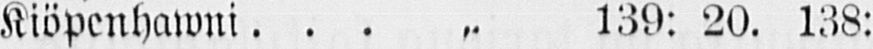Kiöpenhawni ˶ 139: 20. 138: 40.
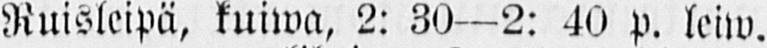Ruisleipä, kuiwa, 2: 30—2: 40 p. leiw.
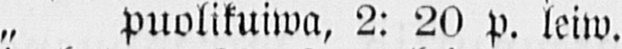„ puolikuiwa, 2: 20 p. leiw.
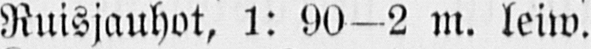Ruisjauhot, 1: 90-2 m. leiw.
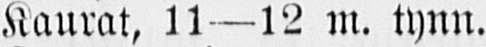Kaurat, li —12 m. tynu.
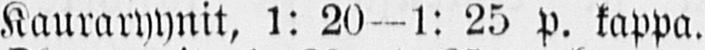Kauraryhnit, l: 20 — 1: 25 p. kappa.
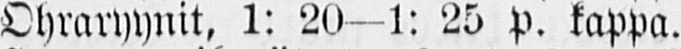Ohraryynit, 1: 20—1: 25 p. kappa.
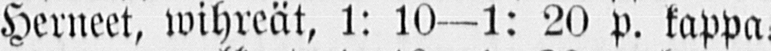Herneet, wihreät, 1: 10—1: 20 p. kappa.
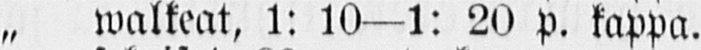„ walkeat, 1: 10—1: 20 p. kappa.
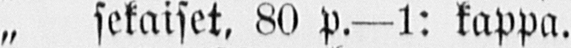„ sekaiset, 80 p.—1: kappa.
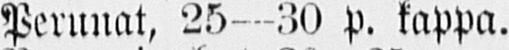Perunat, 2 5—30 p. kappa.
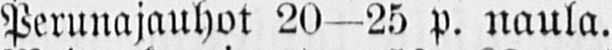Perunajauhot 20—25 p. naula.
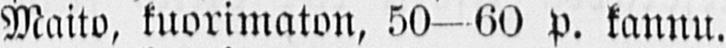Maito, kuorimaton, 50—60 p. kannu.
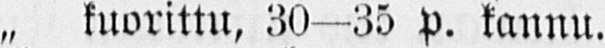„ kuorittu, 30—35 p. kannu.
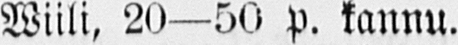Wiili, 20—50 p. kannu.
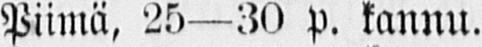Piimä, 25—30 p. kannu.
